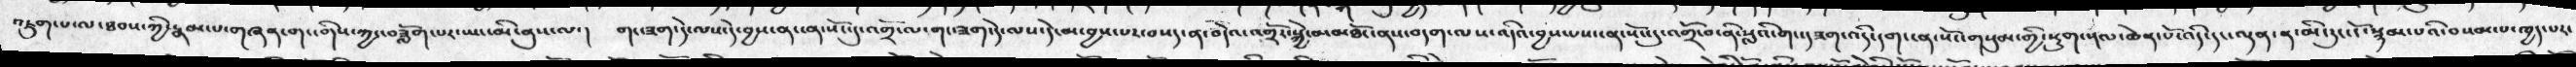འཇུག་པ་ལ་ཐབས་ཀྱི་རྣམ་པ་གཞན་གང་གིས་ཀྱང་བཟློག་པར་ཡང་མི་ནུས་ལ་།  གང་ཟག་དེ་ལས་དེ་བྱས་ན་ངན་སོང་དུ་འགྲོ་ལ་གང་ཟག་དེ་ལས་དེ་མ་བྱས་པར་བསད་ན་བདེའ་འགྲོར་སྐྱེ་བ་མཐོང་ནས་བདག་ལས་འདིའ་བྱས་པས་ངན་སོང་དུ་འགྲོ་བ་ནི་སླའི་གང་།ཟག་འདི་དག་ངན་སོང་གསུམ་གྱི་སྡུག་སྔལ་ཆེན་པོ་འདི་དང་ལྡན་ན་མི་རུང་ངོ་སྙམ་པའི་བསམ་པ་ཁྱད་པར་
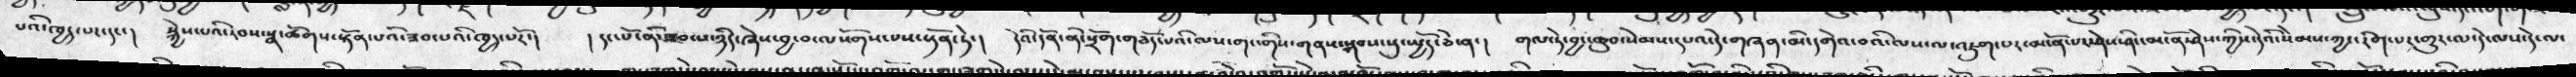པའི་ཁྱད་པར་དང་།  སྐྱེས་པའི་རབས་སྣ་ཚོགས་སྟོན་པའི་ཟབ་པའི་ཁྱད་པརོ་།  ། དང་པོ་ནི་ཟབ་པ་ཉིད་ཞེས་བྱ་བ་ལསོགས་པས་སྟོན་ཏེ་།  དེའི་དོན་ནི་སྲོག་གཅོད་པའི་ལས་གང་གིས་གནས་སྐབས་སུ་སྤྱོད་ཅེ་ན་།  གལ་ཏེ་བྱང་ཆུབ་སེམས་དཔའ་དེ་གཞན་མི་དགེའ་བའི་ལས་ལ་འཇུག་པར་མངོན་པར་ཤེས་ཤིང་མངོན་ཤེས་ཀྱིས་དེའི་སེམས་ཀྱང་རིག་པར་གྱུར་ལ་དེ་ལས་དེ་ལ་
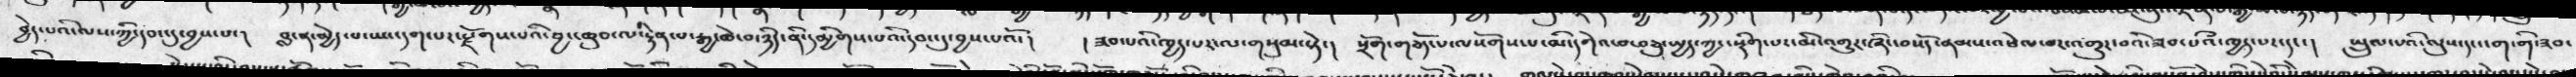བྱེད་པའི་ལས་ཀྱི་དབང་དུ་བྱས་པ་།  བླ་ན་མྱེད་པ་ཡང་དག་པར་རྫོགས་པའི་བྱང་ཆུབ་ལ་རྟེན་པ་རྒྱ་ཆེ་བ་ཉིད་ནི་དམྱིགས་པའི་དབང་དུ་བྱས་པའོ་།  ། ཟབ་པའི་ཁྱད་པར་ལ་གསུམ་སྟེ་།  སྲོག་གཅོད་པ་ལསོགས་པ་མི་དགེའ་བ་བཅུ་སྤྱད་ཀྱང་སྡིག་པར་མི་འགྱུར་ཞིང་བསོད་ནམས་འཕེལ་བར་འགྱུར་བའི་ཟབ་པའི་ཁྱད་པར་དང་།  སྤྲུལ་པའི་ལུས་དང་ངག་གི་ཟབ་
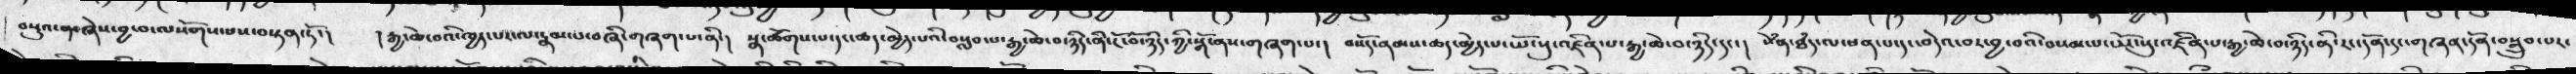བསུའ་ན་ཞེས་བྱ་བ་ལསོགས་པས་བསྟན་ཏོ་།  ། རྒྱ་ཆེ་བའི་ཁྱད་པར་ལ་རྣམ་པ་བཞི་གཞག་པ་ནི་།  སྣ་ཚོགས་པ་དང་ཚད་མྱེད་པའི་བསླབ་པ་རྒྱ་ཆེ་བ་ཉིད་ནི་ངོ་བོ་ཉིད་ཀྱི་སྒོ་ནས་གཞག་པ་།  བསོད་ནམས་ཆད་མྱེད་པ་ཡོངསུ་འཛིན་པ་རྒྱ་ཆེ་བ་ཉིད་དང་།  སེཾན་ཐཾད་ལ་ཕན་པ་དང་བདའེ་བར་བྱ་བའི་བསམ་པ་ཡོངསུ་འཛིན་པ་རྒྱ་ཆེ་བ་ཉིད་ནི་རང་དོན་དང་གཞན་དོན་བསྒྲུབ་པར་
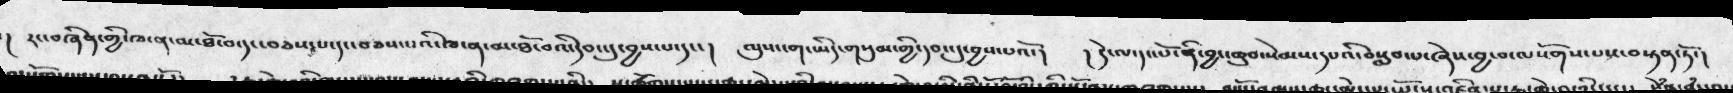།  རང་བཞིན་གྱི་ཁ་ན་མ་ཐོ་བ་དང་བཅས་པ་དང་བཅས་པའི་ཁ་ན་མ་ཐོ་བའི་དབང་དུ་བྱས་པ་དང་།  ལུས་ངག་ཡིད་གསུམ་གྱི་དབང་དུ་བྱས་པའོ་།  ། དེ་ལ་དང་པོ་ནི་་བྱང་ཆུབ་སེམས་དཔའི་བསླབ་པ་ཞེས་བྱ་བ་ལསོགས་པས་བསྟན་ཏོ་།
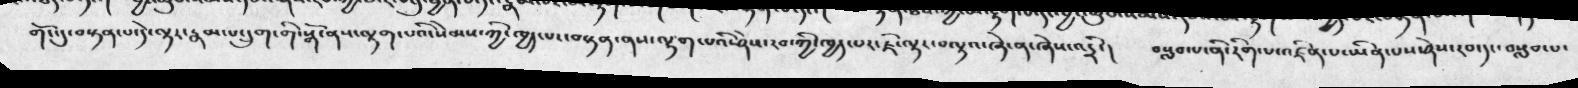གོང་དུ་བསྟན་པ་དེ་ལྟར་རྣམ་པ་དྲུག་གི་སྒོ་ནས་ལྷག་པའི་སེམས་ཀྱི་ཁྱད་པར་བསྟན་ནས་ལྷག་པའི་ཤེས་རབ་གྱི་ཁྱད་པར་ཇི་ལྟར་བལྟའ་ཞེ་ན་ཞེས་འདྲི་།   བསླབ་པ་ནི་རིག་པ་འཛིན་པ་ཡིན་པས་ཤེས་རབ་དང་བསླབ་པ་
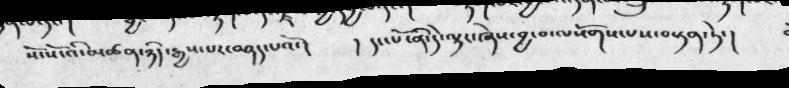སོ་སོ་འི་མཚན་ཉིད་རྒྱས་པར་བཤད་པའོ་།     །  དང་པོ་ནི་དེ་ལྟར་ཞེས་བྱ་བ་ལསོགས་པས་བསྟན་ཏེ་།
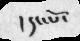།དང་པོ་
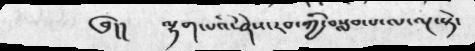༄།།   ལྷག་པའི་ཤེས་རབ་ཀྱི་བསླབ་པ་ལ་ལྔ་སྟེ་
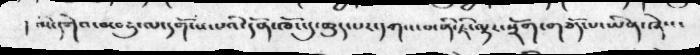། མི་དགེ་བ་བཅུ་ལ་དགོངས་པའི་དོན་ཁོང་དུ་ཆུད་པར་དགའ་བ་ནི་ཇི་ལྟར་སྲོག་གཅོད་པ་ཡིན་ཞེས་
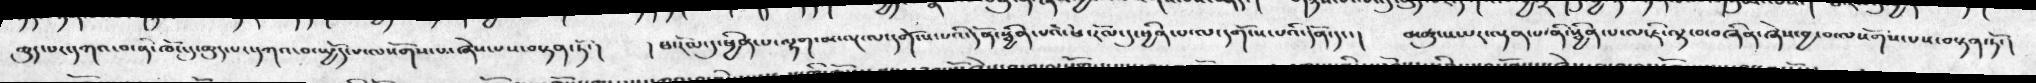ཆུད་པར་དདགའ་བ་ནི་ཁོང་དུ་ཆུད་པར་དཀའ་བ་ཡྱོད་པ་ལསོགས་པ་ཞེས་པས་བསྟན་ཏེ་།   ། ཕ་རོལ་དུ་ཕྱིན་པ་ལྷག་མ་ལྔ་ལ་དགོངས་པའི་དོན་སྦྱིན་པའི་ཕ་རོལ་དུ་ཕྱིན་པ་ལ་དགོངས་པའི་དོན་དང་།   མཚུངས་པར་ལྡན་པ་ནི་སྦྱིན་པ་ལ་ཇི་ལྟ་བ་བཞིན་ཞེས་བྱ་བ་ལསོགས་པས་བསྟན་ཏོ་།
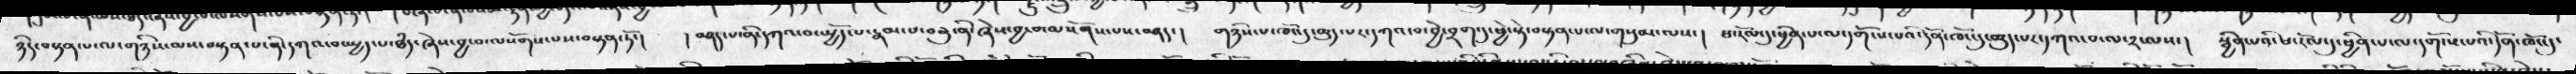ཉིད་བསྟན་པ་ལ་གཉིས་ལས་བསྟན་པ་ནི་དགའ་བ་ཡྱད་པ་ཐཾད་ཞེས་བྱ་ལསོགས་པས་བསྟན་ཏོ་།  ། བཤད་པ་ནི་དཀའ་བ་ཡྱོད་པ་རྣམ་པ་བཅུ་ནི་ཞེས་བྱ་བ་ལསོགས་པས་བཤད་།  གཉིས་པ་ཁོང་དུ་ཆུད་པར་དཀའ་བ་བྱ་བྲག་དུ་ཕྱེ་སྟེ་བསྟན་པ་ལ་གསུམ་ལས་།  ཕ་རོལ་དུ་ཕྱིན་པ་ལ་དགོངས་པའི་དོན་དུ་ཁོང་དུ་ཆུད་པར་དཀའ་པ་ལ་༢་ལས་།  སྦྱིན་པའི་ཕ་རོལ་དུ་ཕྱིན་པ་ལ་དགོངས་པའི་དོན་ཁོང་དུ་
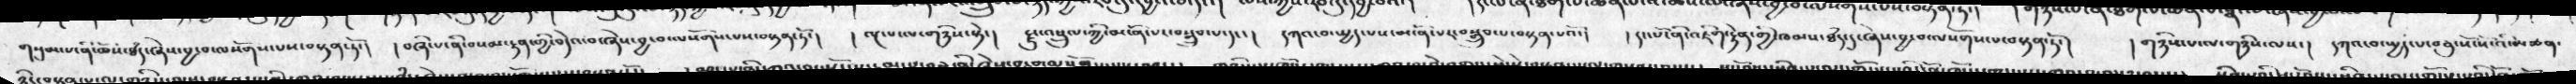གསུམ་པ་ནི་ཆོས་ཐཾད་ཞེས་བྱ་བ་ལསོགས་པས་བསྟན་ཏོ་།   ། བཞི་པ་ནི་བསམ་རྟན་གྱི་བདེའ་བ་ཞེས་བྱ་བ་ལསོགས་པས་བསྟན་ཏོ་།  ། ལྔ་པ་ལ་གཉིས་སྟེ་།  རྗུ་འཕྲུལ་ཀྱི་མངོན་པར་བསྒྲུབ་པ་དང་།  དཀའ་བ་ཡྱད་པས་མངོན་པར་བསྒྲུབ་པ་བསྟན་པའོ་།   ། དང་པོ་ནི་འཇིག་རྟེན་གྱི་ཁམས་ཐཾད་དུ་ཞེས་བྱ་བ་ལསོགས་པ་བསྟན་ཏོ་།  ། གཉིས་པ་ལ་གཉིས་ལས་།  དཀའ་བ་ཡྱད་པ་བཅུ་སོ་སོ་འི་མཚན་
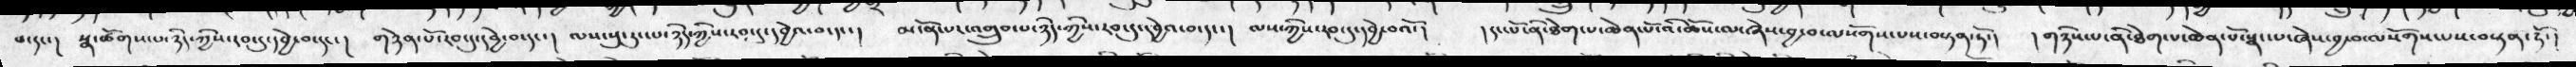བ་དང་།  སྣ་ཚོགས་པ་ཉིད་ཀྱིས་རབ་དུ་དབྱེ་བ་དང་།  གཉེན་པོ་རབ་དུ་དབྱེ་བ་དང་། ལས་སུ་རུང་པ་ཉིད་ཀྱི་དབྱེ་བ་དང་། མངོན་པ་འགྲུབ་པ་ཉིད་ཀྱི་དབྱེ་བ་དང་།  ལས་ཀྱི་རབ་དུ་དབྱེ་བའོ་།  །དང་པོ་ནི་ཐེག་པ་ཆེན་པོ་འི་ཆོས་ལ་ཞེས་བྱ་བ་ལསོགས་པས་བསྟན་ཏོ་།  །གཉིས་པ་ནི་ཐེག་པ་ཆེན་པོ་སྣང་པ་ཞེས་བྱ་བ་ལསོགས་པས་བསྟན་ཏོ་།
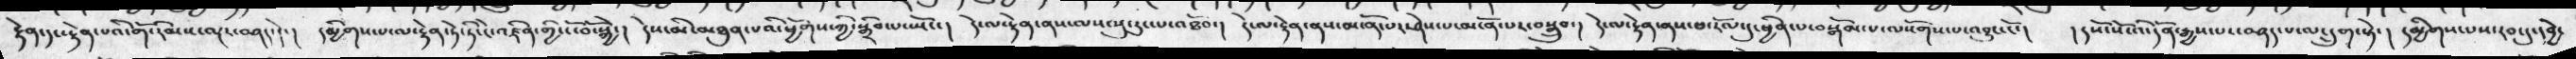རྟེན་དང་རྟེན་པའི་གོ་རིམས་ལྔར་བཤད་དེ་།  དམྱིགས་པ་ལ་རྟེན་ཏེ་ཏི་ངེ་འཛིན་གྱི་ངོ་བོ་སྐྱེ་།  དེས་མི་མཐུན་པའི་ཕྱོགས་ཀྱི་སྒྲིབ་པ་སྤོང་།  དེ་ལ་རྟེན་ནས་མངོན་པར་ཤེས་པ་མངོན་པར་སྒྲུབ་།  དེ་ལ་རྟེན་ནས་ཕ་རོལ་དུ་ཕྱིན་པ་བསྒོམ་པ་ལསོགས་པ་འབྱུང་ངོ་།  །།སོ་སོ་འི་དོན་རྒྱས་པར་བཤད་པ་ལ་དྲུག་སྟེ་།  དམྱིགས་པས་རབ་དུ་དབྱེ་
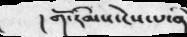།གོ་རིམས་ངེས་པ་ནི
